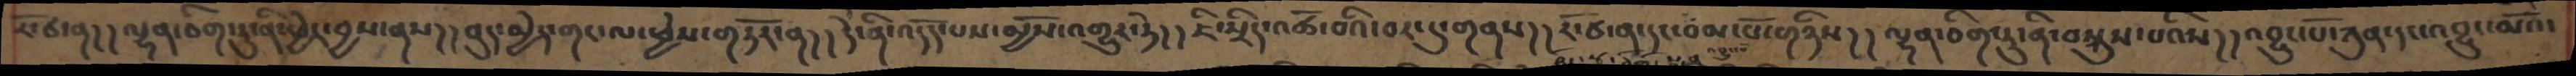རོ་ཙ་ན།།ལྷན་ཅིག་ཏུ་ནི་ཕྱེར་བྱས་ནས།།བུད་མྱེད་གང་ལ་ཕྱེས་གཏོར་ན།།དེ་ནི་འདོད་པས་མྱོས་འགྱུར་ཏེ།།ཇི་སྲིད་འཚོ་བའི་བར་དུ་གནས།།རོ་ཙ་ན་དང་བམ་པོ་གཉིས།།ལྷན་ཅིག་ཏུ་ནི་བསྐུས་པའིས།།འབྱུང་པོ་ཀུན་དང་འབྱུང་མའོ་
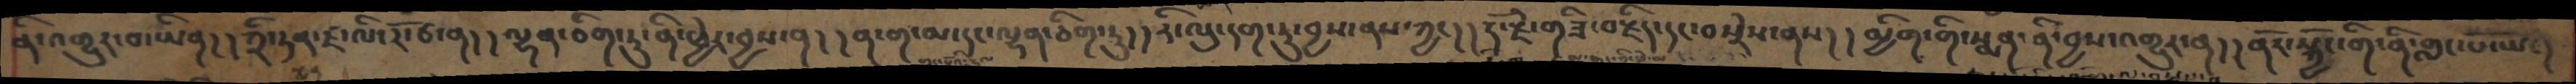ནི་འགྱུར་བ་ཡིན། །ཀྲི་ཏན་ཛ་ལི་རོ་ཙ་ན། །ལྷན་ཅིག་ཏུ་ནི་ཕྱེར་བྱས་ན། །ན་ག་མ་དང་ལྷན་ཅིག་ཏུ། །རི་ལུ་དག་ཏུ་བྱས་ནས་ཀྱང། །རྡོ་རྗེ་གཟི་བརྗིད་དང་བསྲེས་ནས། །མྱིག་གི་སྨན་ནི་བྱས་འགྱུར་ན། །ནོར་སྐྱོང་གི་ནི་གླང་པོ་ཡང།
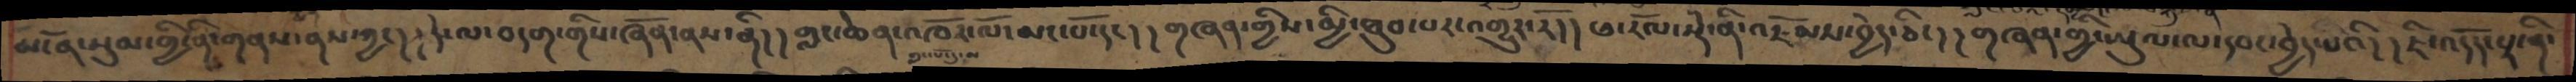མངོན་སུམ་གྱི་ནི་གནས་ནས་ཀྱང། །དེ་ལ་བདག་གིས་ཞོན་ནས་ནི། །གླང་ཆེན་འཁོར་ལོ་མང་པོ་དང། །གཞན་གྱིས་མྱི་ཐུབ་པར་འགྱུར་རོ། །ཕ་རོལ་སྡེ་ནི་འཇོམས་བྱེད་ཅིང། །གཞན་གྱི་ཡུལ་ལ་དབང་བྱེད་པའི། །ཇི་འདོད་པར་ནི་
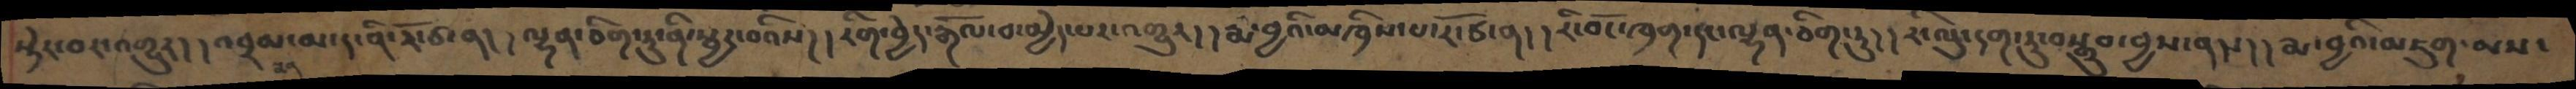སྟེར་བར་འགྱུར། །འབྲམ་མ་ད་ནི་རོ་ཙ་ན། །ལྷན་ཅིག་ཏུ་ནི་སྦྱར་བའིས། །རིག་བྱེད་རྒོལ་བ་མྱེད་པར་འགྱུར། །རྨ་བྱའི་མཁྲིས་པ་རོ་ཙ་ན། །རི་བོང་ཁྲག་དང་ལྷན་ཅིག་ཏུ། །རི་ལུ་དག་ཏུ་བསྒྲུབ་བྱས་ནས། །རྨ་བྱའི་མཇུག་མས་
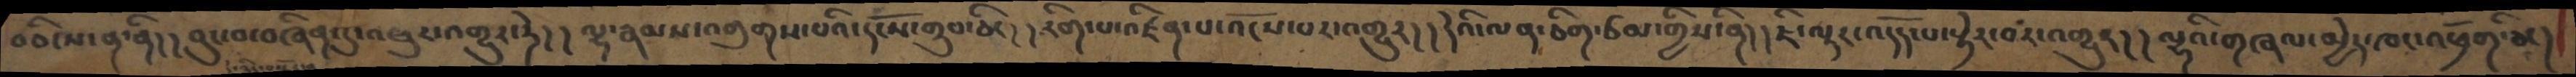བཅིངས་ན་ནི། །བུང་བ་བཞིན་དུ་འཕུར་འགྱུར་ཏེ། །ལྷ་རྣམས་འགུགས་པའི་དངོས་གྲུབ་ཅིང། །རིག་པ་འཛིན་པ་འོངས་པར་འགྱུར། །དེའི་ལན་ཅིག་ཙམ་གྱིས་ནི། །ཇི་ལྟར་འདོད་པ་སྟེར་བར་འགྱུར། །ལྷའི་གཞལ་མྱེད་ཁང་འཕྲོག་ཅིང།
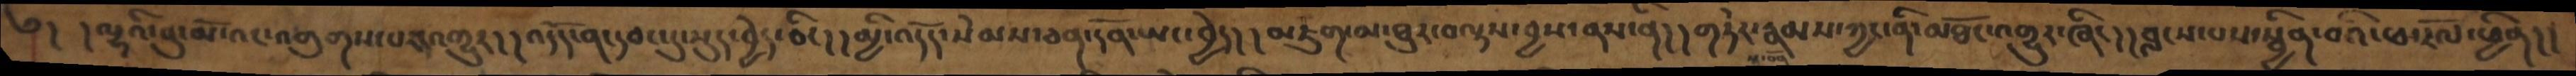༄། །ལྷའི་བུ་མོ་འང་འགུགས་པར་འགྱུར།།འདོད་ན་དབང་དུ་སྡུད་བྱེད་ཅིང།།མྱི་འདོད་སེམས་ཅན་དོན་ཡང་བྱེད།།འཇུག་མ་ཐུར་བལྟས་བྱས་ནས་ནི།།གཏེར་རྣམས་ཀྱང་ནི་མཐོང་འགྱུར་ཞིང།།བླངས་པས་སྦྱིན་བའི་ཕ་རོལ་ཕྱིན།།
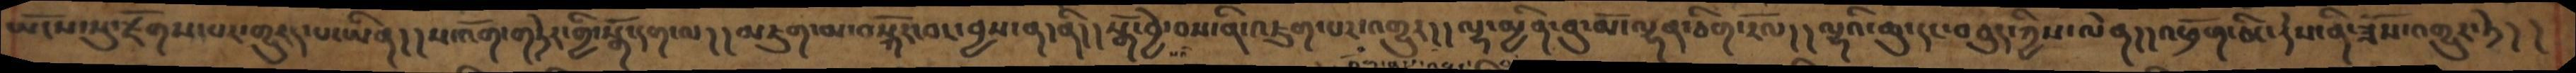ཡོངས་སུ་རྫོགས་པར་གྱུརད་པ་ཡིན།།ས་འོག་གཏེར་གྱི་སྒོ་དག་ལ།།མཇུག་མ་བསྐོར་བར་བྱས་ནས་ནི།།སྒོ་བྱེ་བས་ནི་འཇུག་པར་འགྱུར།།ལྷ་མྱིན་བུ་མོ་ལྷན་ཅིག་རོལ།།ལྷའི་ཆུ་དང་བཅུད་ཀྱིས་ལེན།།འཕྲོག་ཅིང་དེས་ནི་ཟོས་འགྱུར་ཏེ།།
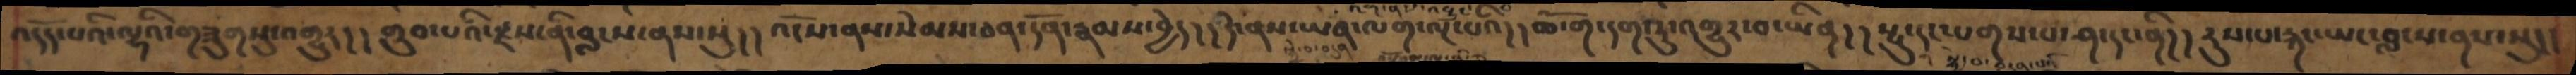འདོད་པའི་ལྷའི་གཟུགསུ་འགྱུར།།གྲུབ་པའི་རྫས་ནི་བླངས་ནས་སུ།།འོངས་ནས་སེམས་ཅན་དོན་རྣམས་བྱེད།།དེ་ནས་ཡན་ལག་ལྔ་པའི།།ཆོ་ག་དག་ཏུ་འགྱུར་བ་ཡིན།།སྤུ་དང་སྤགས་པ་ཤ་དང་ནི།།རུས་པ་རྐང་ཡང་བླངས་ནས་སུ།།
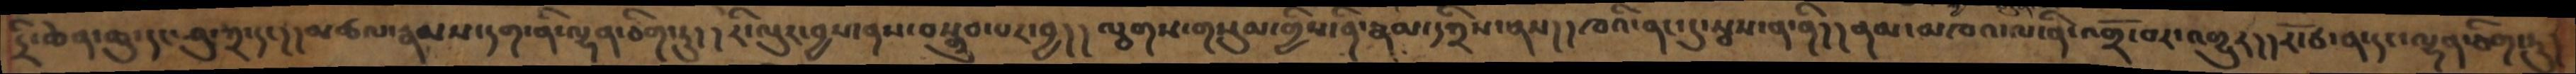དྲི་ཆེན་ཆུ་དང་ཤུ་ཀྲ་དང།།མཚལ་རྣམས་དག་ནི་ལྷན་ཅིག་ཏུ།།རི་ལུང་བྱས་ནས་བསྒྲུབ་པར་བྱ།།ལྕགས་གསུམ་གྱིས་ནི་རྣམ་དཀྲིས་ནས།།ཁའི་ནང་དུ་སྦས་ན་ནི།།ནམ་མཁའ་ལ་ནི་འགྲོ་བར་འགྱུར།།རོ་ཙ་ན་དང་ལྷན་ཅིག་ཏུ།
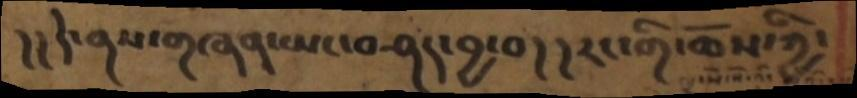།།དེ་ནས་གཞན་ཡང་བཤད་བྱ་བ།།རང་གི་ཆོས་ཀྱི་
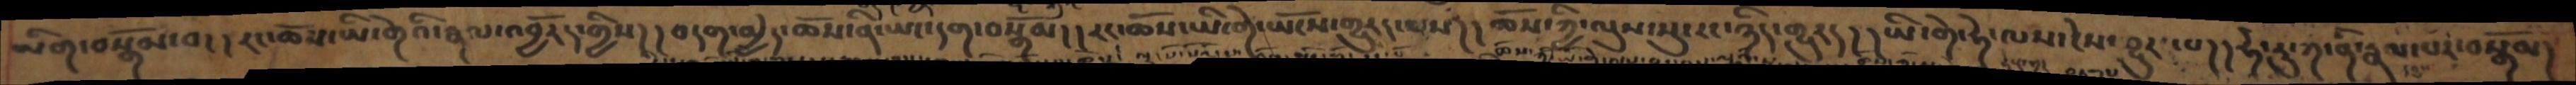ཡིག་བསྒོམ་བ།།རང་ཆོས་ཡི་གེའི་རྣལ་འབྱོརད་གྱིས།།བདག་མྱེད་ཆོས་ནི་ཡང་དག་བསྒོམ།།རང་ཆོས་ཡི་གེ་ཡོངས་གྱུརད་པས།།ཆོས་ཀྱི་ལུས་སུ་རང་ཉིད་གྱུརད།།ཡི་གེ་ཧེ་ལས་ངེས་བྱུར་པ།།ཧེ་རུ་ཀ་ནི་རྣམ་པར་བསྒོམ།
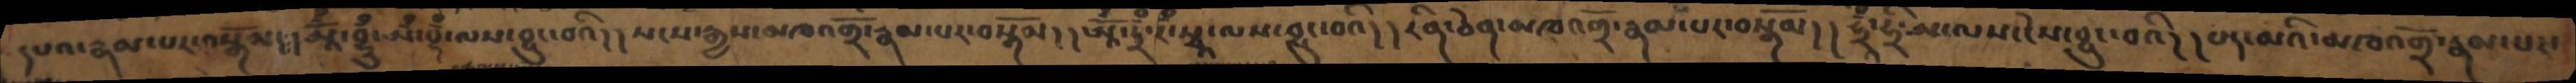དཔའ་རྣམ་པར་བསྒོམ།།ཨཱོྃ་བྷུྃ་ཨྃ་བྷྃ་ལས་བྱུང་བའི།།སངས་རྒྱས་མཁའགྲོ་རྣམ་པར་བསྒོམ།།ཨཱོྃ་ཏྲྃ་རྃ་སྭཱ་ལས་བྱུང་བའི།།རིན་ཅེན་མཁའགྲོ་རྣམ་པར་བསྒོམ།།ཧྲྃ་ཧྲི་ཨ་ལས་ངེས་བྱུང་བའི།།པད་མའི་མཁའགྲོ་རྣམ་པར་
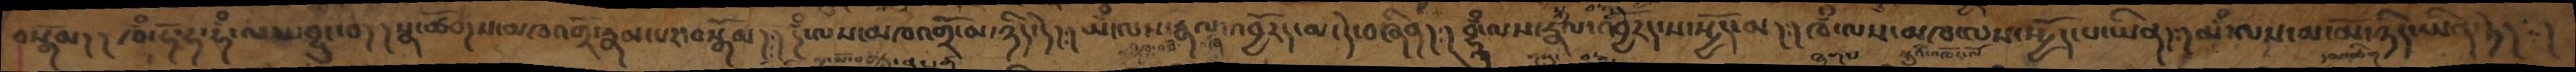བསྒོམ།།ཁྃ་ཧོ་ཧ་ཧྃ་ལས་བྱུང་བ།།སྣ་ཚོགས་མཁའགྲོ་རྣམ་པར་བསྒོམ།།ཌྃ་ལས་མཁའགྲོ་མ་ཉིད་དེ།།ཡྃ་ལས་རྣལ་འབྱོརད་མ་དེ་བཞིན།།བྷུྃ་ལས་རྣལ་འབྱོརད་ས་སྤྱོད་མ།།ཁྃ་ལས་མཁ་ལས་སྤྱོད་པ་ཡིན།།མྃ་ལས་མ་མོ་ཉིད་ཡིན་ཏེ། །
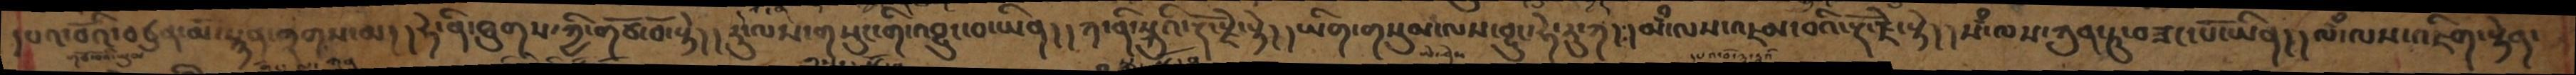དཔའ་བོའི་བཙུན་མོ་སྙན་གྲགས་མ།།ཧེ་ནི་ཐུགས་ཀྱི་གཙོ་བོ་སྟེ།།རུ་ལས་གསུང་གི་འབྱུང་བ་ཡིན།།ཀ་ནི་སྐུའི་རྡོ་རྗེ་སྟེ།།ཡིག་གསུམ་ལས་བྱུང་ཧེ་རུ་ཀ།།མྃ་ལས་འཇམ་བའི་རྡོ་རྗེ་སྟེ།།སྃ་ལས་ཀུན་ཏུ་བཟང་པོ་ཡིན།།ལྃ་ལས་འཇིག་རྟེན་
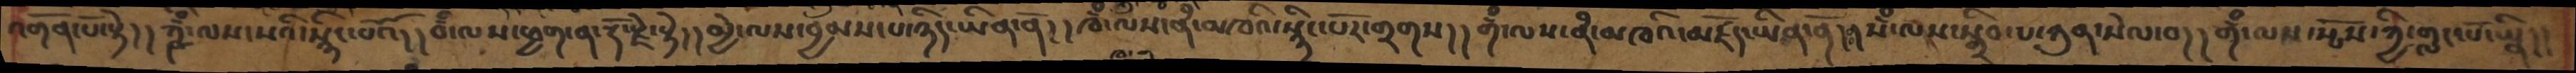འགོན་པོ་སྟེ།།ཀྵྃ་ལས་སའི་སྙིང་པོའོ།།བྃ་ལས་ཕྱག་ན་རྡོ་རྗེ་སྟེ།།མྱེ་ལས་བྱམས་པ་ཉིད་ཡིན་ནོ།།ཁྃ་ལས་ནཾ་མཁའི་སྙིང་པོར་གྲགས།།གྃ་ལས་ནཾ་མཁའི་མཛོད་ཡིན་ནོ།།སྃ་ལས་སྒྲིབ་པ་ཀུན་སེལ་བ།།གྃ་ལས་སྤོས་ཀྱི་གླང་པོ་ཡིན།།
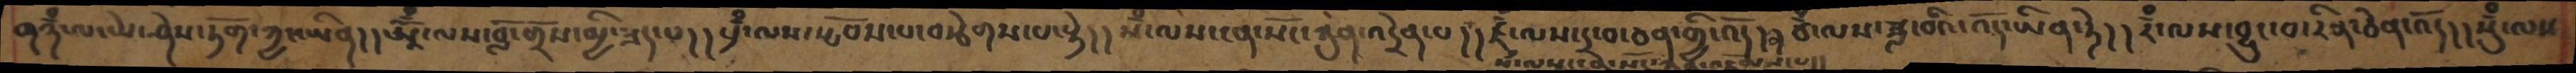གཉཾ་པ་ཡེ་ཤེས་ཏོག་ཀྱང་ཡིན།།ཨཱོྃ་ལས་བློ་གྲོས་མྱི་ཟད་པ།།པྲྃ་ལས་སྤོབས་པ་བརྩེགས་པ་སྟེ།།སྃ་ལས་ངན་སོང་ཀུན་འདྲེན་པ།།ཛྃ་ལས་དྲ་བ་ཅན་གྱི་འོད།།ཙྃ་ལས་ཟླ་བའི་འོད་ཡིན་ཏེ།།རྃ་ལས་བྱུང་བ་རིན་ཅེན་འོད།།སུྃ་ལས་
